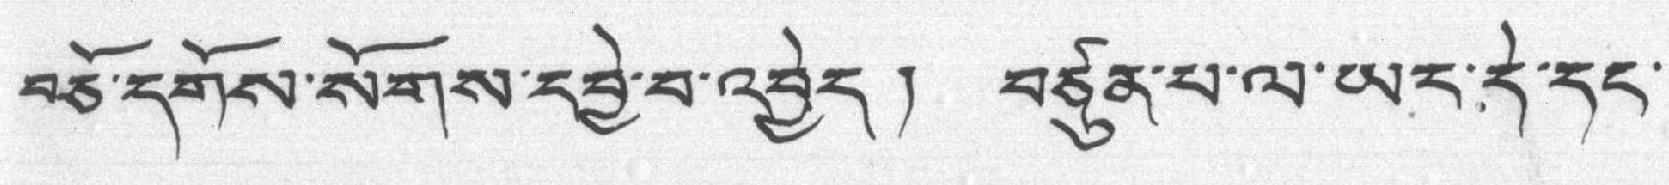བཅོ་དགོས་སོགས་དབྱེ་བ་འབྱེད། བཙུན་པ་ལ་ཡང་དེ་དང་
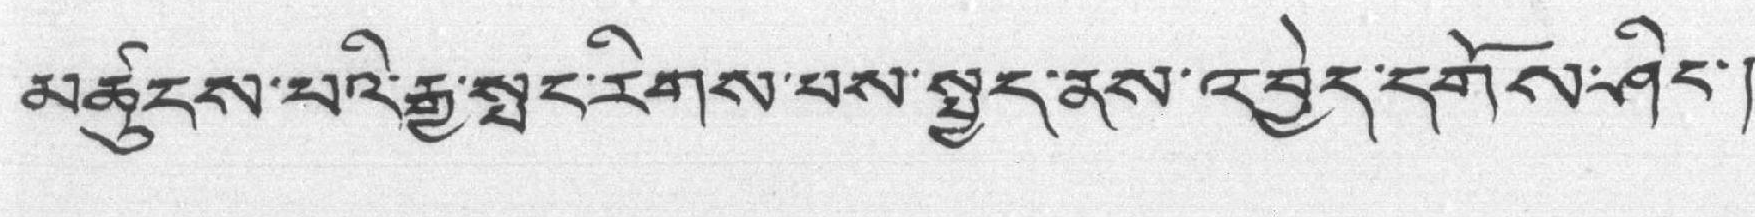མཚུངས་པའི་རྒྱ་སྤང་རིགས་པས་སྤྱད་ནས་འབྱེད་དགོས་ཤིང་།
